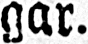gar.
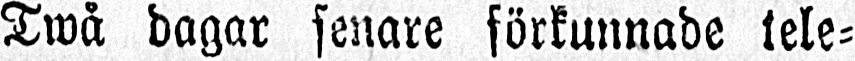Twå dagar senare förkunnade tele-
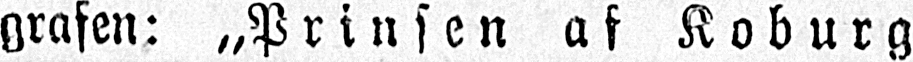grafen: „Prinsen af Koburg
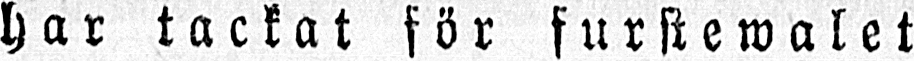har tackat för furstewalet
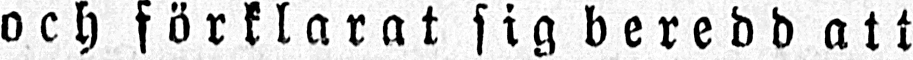och förklarat sig beredd att
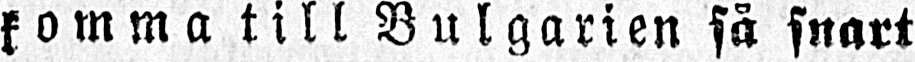komma till Bulgarien så snart
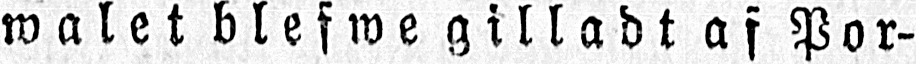walet blefwe gilladt af Por-
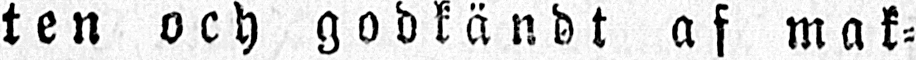ten och godkändt af mak-
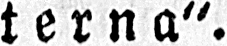terna".
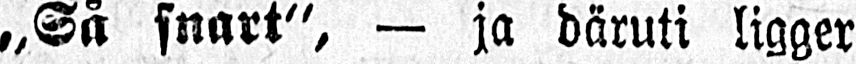„Så snart", — ja däruti ligger
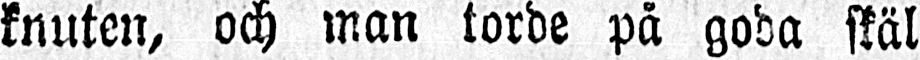knuten, och man torde på goda skäl
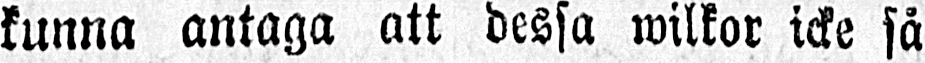kunna antaga att dessa wilkor icke så
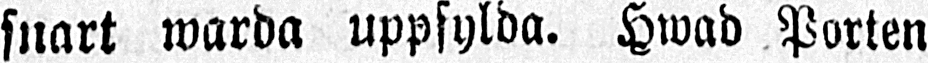snart warda uppfylda. Hwad Porten
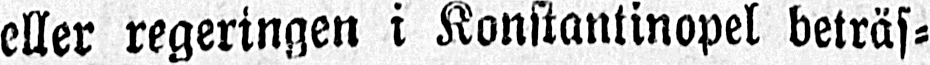eller regeringen i Konstantinopel beträf-
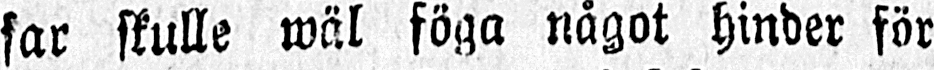far skulle wäl föga något hinder för
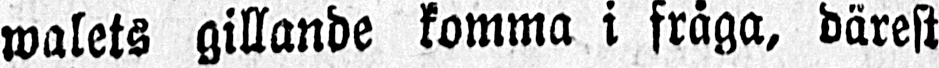walets gillande komma i fråga, därest
